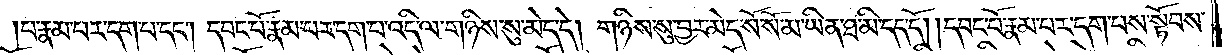པ་རྣམ་པར་དག་པ་དང༌། དབང་པོ་རྣམ་པར་དག་པ་འདི་ལ་གཉིས་སུ་མེད་དེ། གཉིས་སུ་བྱར་མེད་སོ་སོ་མ་ཡིན་ཐ་མི་དད་དོ། །དབང་པོ་རྣམ་པར་དག་པས་སྟོབས་
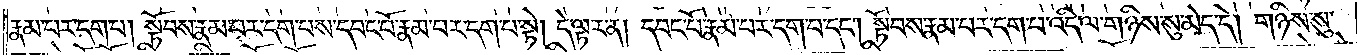རྣམ་པར་དག་པ། སྟོབས་རྣམ་པར་དག་པས་དབང་པོ་རྣམ་པར་དག་པ་སྟེ། དེ་ལྟར་ན་དབང་པོ་རྣམ་པར་དག་པ་དང༌། སྟོབས་རྣམ་པར་དག་པ་འདི་ལ་གཉིས་སུ་མེད་དེ། གཉིས་སུ་
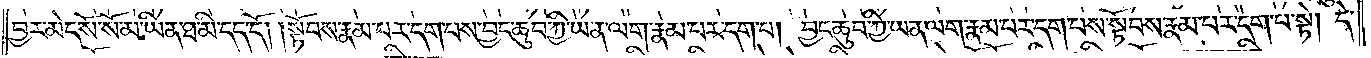བྱར་མེད་སོ་སོ་མ་ཡིན་ཐ་མི་དད་དོ། །སྟོབས་རྣམ་པར་དག་པས་བྱང་ཆུབ་ཀྱི་ཡན་ལག་རྣམ་པར་དག་པ། བྱང་ཆུབ་ཀྱི་ཡན་ལག་རྣམ་པར་དག་པས་སྟོབས་རྣམ་པར་དག་པ་སྟེ། དེ་
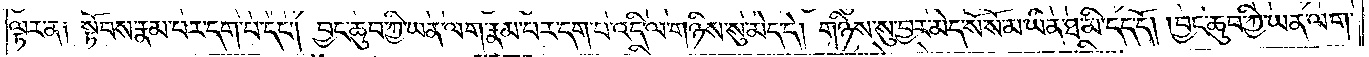ལྟར་ན། སྟོབས་རྣམ་པར་དག་པ་དང༌། བྱང་ཆུབ་ཀྱི་ཡན་ལག་རྣམ་པར་དག་པ་འདི་ལ་གཉིས་སུ་མེད་དེ། གཉིས་སུ་བྱར་མེད་སོ་སོ་མ་ཡིན་ཐ་མི་དད་དོ། །བྱང་ཆུབ་ཀྱི་ཡན་ལག་
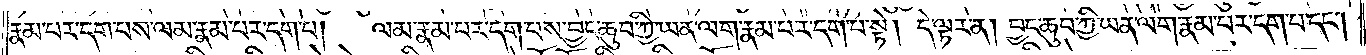རྣམ་པར་དག་པས་ལམ་རྣམ་པར་དག་པ། ལམ་རྣམ་པར་དག་པས་བྱང་ཆུབ་ཀྱི་ཡན་ལག་རྣམ་པར་དག་པ་སྟེ། དེ་ལྟར་ན། བྱང་ཆུབ་ཀྱི་ཡན་ལག་རྣམ་པར་དག་པ་དང༌།
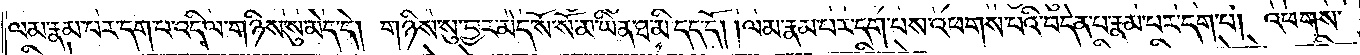ལམ་རྣམ་པར་དག་པ་འདི་ལ་གཉིས་སུ་མེད་དེ། གཉིས་སུ་བྱར་མེད་སོ་སོ་མ་ཡིན་ཐ་མི་དད་དོ། །ལམ་རྣམ་པར་དག་པས་འཕགས་པའི་བདེན་པ་རྣམ་པར་དག་པ། འཕགས་
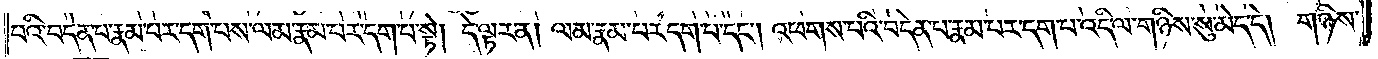པའི་བདེན་པ་རྣམ་པར་དག་པས་ལམ་རྣམ་པར་དག་པ་སྟེ། དེ་ལྟར་ན། ལམ་རྣམ་པར་དག་པ་དང༌། འཕགས་པའི་བདེན་པ་རྣམ་པར་དག་པ་འདི་ལ་གཉིས་སུ་མེད་དེ། གཉིས་
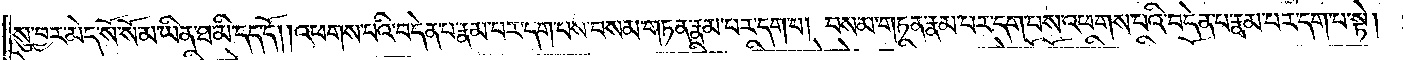སུ་བྱར་མེད་སོ་སོ་མ་ཡིན་ཐ་མི་དད་དོ། །འཕགས་པའི་བདེན་པ་རྣམ་པར་དག་པས་བསམ་གཏན་རྣམ་པར་དག་པ། བསམ་གཏན་རྣམ་པར་དག་པས་འཕགས་པའི་བདེན་པ་རྣམ་པར་དག་པ་སྟེ།
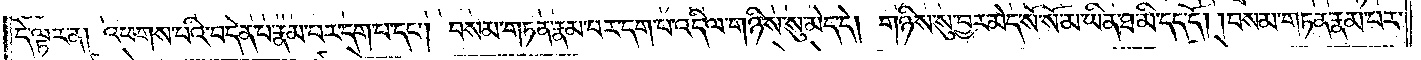དེ་ལྟར་ན། འཕགས་པའི་བདེན་པ་རྣམ་པར་དག་པ་དང༌། བསམ་གཏན་རྣམ་པར་དག་པ་འདི་ལ་གཉིས་སུ་མེད་དེ། གཉིས་སུ་བྱར་མེད་སོ་སོ་མ་ཡིན་ཐ་མི་དད་དོ། །བསམ་གཏན་རྣམ་པར་
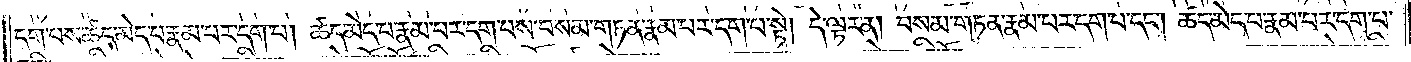དག་པས་ཚད་མེད་པ་རྣམ་པར་དག་པ། ཚད་མེད་པ་རྣམ་པར་དག་པས་བསམ་གཏན་རྣམ་པར་དག་པ་སྟེ། དེ་ལྟར་ན། བསམ་གཏན་རྣམ་པར་དག་པ་དང༌། ཚད་མེད་པ་རྣམ་པར་དག་པ་
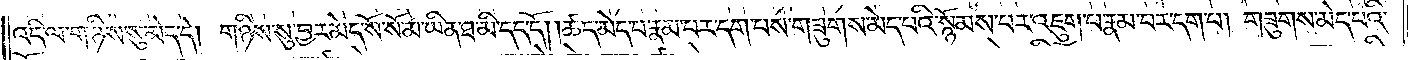འདི་ལ་གཉིས་སུ་མེད་དེ། གཉིས་སུ་བྱར་མེད་སོ་སོ་མ་ཡིན་ཐ་མི་དད་དོ། །ཚད་མེད་པ་རྣམ་པར་དག་པས་གཟུགས་མེད་པའི་སྙོམས་པར་འཇུག་པ་རྣམ་པར་དག་པ། གཟུགས་མེད་པའི་
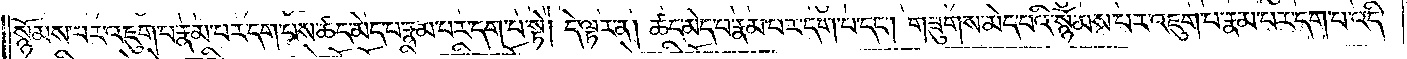སྙོམས་པར་འཇུག་པ་རྣམ་པར་དག་པས་ཚད་མེད་པ་རྣམ་པར་དག་པ་སྟེ། དེ་ལྟར་ན། ཚད་མེད་པ་རྣམ་པར་དག་པ་དང༌། གཟུགས་མེད་པའི་སྙོམས་པར་འཇུག་པ་རྣམ་པར་དག་པ་འདི་
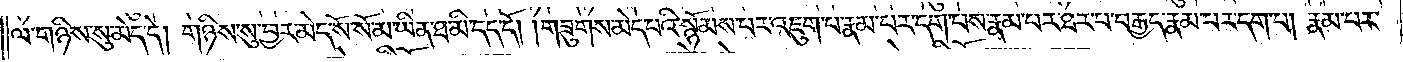ལ་གཉིས་སུ་མེད་དེ། གཉིས་སུ་བྱར་མེད་སོ་སོ་མ་ཡིན་ཐ་མི་དད་དོ། །གཟུགས་མེད་པའི་སྙོམས་པར་འཇུག་པ་རྣམ་པར་དག་པས་རྣམ་པར་ཐར་པ་བརྒྱད་རྣམ་པར་དག་པ། རྣམ་པར་
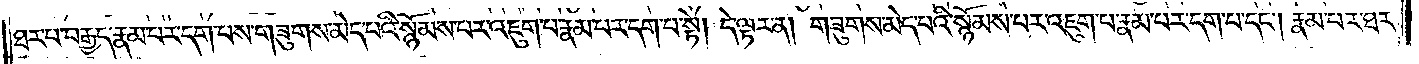ཐར་པ་བརྒྱད་རྣམ་པར་དག་པས་གཟུགས་མེད་པའི་སྙོམས་པར་འཇུག་པ་རྣམ་པར་དག་པ་སྟེ། དེ་ལྟར་ན། གཟུགས་མེད་པའི་སྙོམས་པར་འཇུག་པ་རྣམ་པར་དག་པ་དང༌། རྣམ་པར་ཐར་
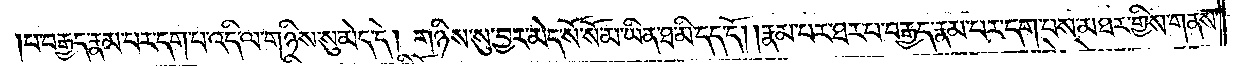པ་བརྒྱད་རྣམ་པར་དག་པ་འདི་ལ་གཉིས་སུ་མེད་དེ། གཉིས་སུ་བྱར་མེད་སོ་སོ་མ་ཡིན་ཐ་མི་དད་དོ། །རྣམ་པར་ཐར་པ་བརྒྱད་རྣམ་པར་དག་པས་མཐར་གྱིས་གནས་
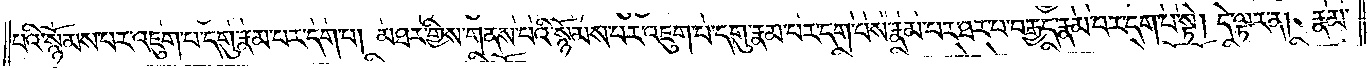པའི་སྙོམས་པར་འཇུག་པ་དགུ་རྣམ་པར་དག་པ། མཐར་གྱིས་གནས་པའི་སྙོམས་པར་འཇུག་པ་དགུ་རྣམ་པར་དག་པས་རྣམ་པར་ཐར་པ་བརྒྱད་རྣམ་པར་དག་པ་སྟེ། དེ་ལྟར་ན། རྣམ་
